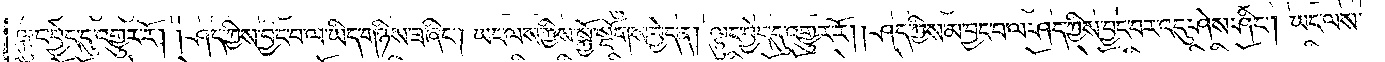ལྟུང་བྱེད་དུ་འགྱུར་རོ། །ཤད་ཀྱིས་བྱང་བ་ལ་ཡིད་གཉིས་ཟ་ཞིང༌། ཡང་ལས་ཀྱིས་སྐྱོ་སྔོགས་བྱེད་ན། ལྟུང་བྱེད་དུ་འགྱུར་རོ། །ཤད་ཀྱིས་མ་བྱང་བ་ལ་ཤད་ཀྱིས་བྱང་བར་འདུ་ཤེས་ཤིང༌། ཡང་ལས་
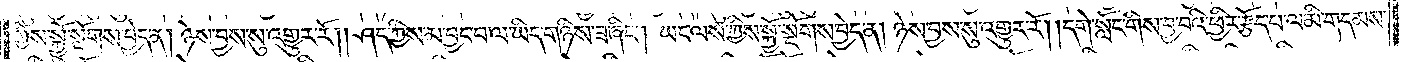ཀྱིས་སྐྱོ་སྔོགས་བྱེད་ན། ཉེས་བྱས་སུ་འགྱུར་རོ། །ཤད་ཀྱིས་མ་བྱང་བ་ལ་ཡིད་གཉིས་ཟ་ཞིང༌། ཡང་ལས་ཀྱིས་སྐྱོ་སྔོགས་བྱེད་ན། ཉེས་བྱས་སུ་འགྱུར་རོ། །དགེ་སློང་གིས་བྱ་བའི་ཕྱིར་རྩོད་པ་ལ་མི་གདམས་
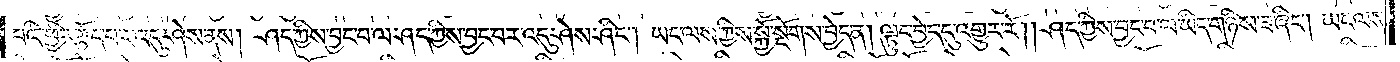པའི་ཕྱིར་རྩོད་པར་འདུ་ཤེས་ནས། ཤད་ཀྱིས་བྱང་བ་ལ་ཤད་ཀྱིས་བྱང་བར་འདུ་ཤེས་ཤིང༌། ཡང་ལས་ཀྱིས་སྐྱོ་སྔོགས་བྱེད་ན། ལྟུང་བྱེད་དུ་འགྱུར་རོ། །ཤད་ཀྱིས་བྱང་བ་ལ་ཡིད་གཉིས་ཟ་ཞིང༌། ཡང་ལས་
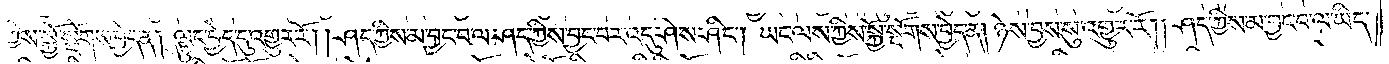ཀྱིས་སྐྱོ་སྔོགས་བྱེད་ན། ལྟུང་བྱེད་དུ་འགྱུར་རོ། །ཤད་ཀྱིས་མ་བྱང་བ་ལ་ཤད་ཀྱིས་བྱང་བར་འདུ་ཤེས་ཤིང༌། ཡང་ལས་ཀྱིས་སྐྱོ་སྔོགས་བྱེད་ན། ཉེས་བྱས་སུ་འགྱུར་རོ། །ཤད་ཀྱིས་མ་བྱང་བ་ལ་ཡིད་
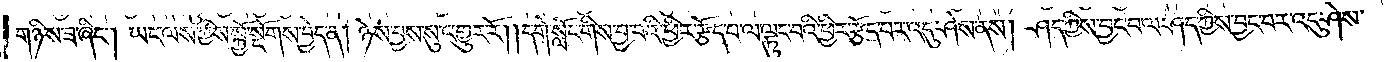གཉིས་ཟ་ཞིང༌། ཡང་ལས་ཀྱིས་སྐྱོ་སྔོགས་བྱེད་ན། ཉེས་བྱས་སུ་འགྱུར་རོ། །དགེ་སློང་གིས་བྱ་བའི་ཕྱིར་རྩོད་པ་ལ་ལྟུང་བའི་ཕྱིར་རྩོད་པར་འདུ་ཤེས་ནས། ཤད་ཀྱིས་བྱང་བ་ལ་ཤད་ཀྱིས་བྱང་བར་འདུ་ཤེས་
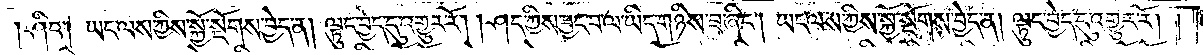ཤིང༌། ཡང་ལས་ཀྱིས་སྐྱོ་སྔོགས་བྱེད་ན། ལྟུང་བྱེད་དུ་འགྱུར་རོ། །ཤད་ཀྱིས་བྱང་བ་ལ་ཡིད་གཉིས་ཟ་ཞིང༌། ཡང་ལས་ཀྱིས་སྐྱོ་སྔོགས་བྱེད་ན། ལྟུང་བྱེད་དུ་འགྱུར་རོ། །
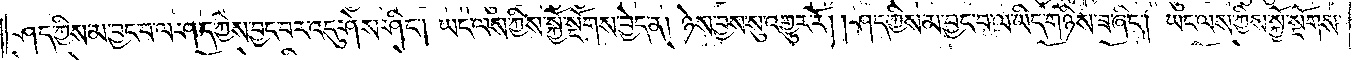ཤད་ཀྱིས་མ་བྱང་བ་ལ་ཤད་ཀྱིས་བྱང་བར་འདུ་ཤེས་ཤིང༌། ཡང་ལས་ཀྱིས་སྐྱོ་སྔོགས་བྱེད་ན། ཉེས་བྱས་སུ་འགྱུར་རོ། །ཤད་ཀྱིས་མ་བྱང་བ་ལ་ཡིད་གཉིས་ཟ་ཞིང༌། ཡང་ལས་ཀྱིས་སྐྱོ་སྔོགས་
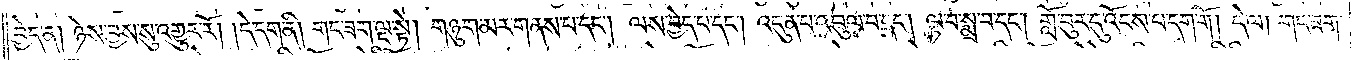བྱེད་ན། ཉེས་བྱས་སུ་འགྱུར་རོ། །དེ་དག་ནི། གང་ཟག་ལྔ་སྟེ། གཉུག་མར་གནས་པ་དང༌། ལས་བྱེད་པ་དང༌། འདུན་པ་འབུལ་བ་དང༌། ལྟ་བ་སྨྲ་བ་དང༌། གློ་བུར་དུ་འོངས་པ་དག་གོ །དེ་ལ། གང་ཟག་
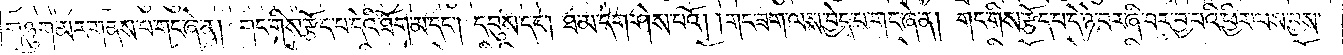གཉུག་མར་གནས་པ་གང་ཞེ་ན། གང་གིས་རྩོད་པ་དེའི་ཐོག་མ་དང༌། དབུས་དང༌། ཐ་མ་དག་ཤེས་པའོ། །གང་ཟག་ལས་བྱེད་པ་གང་ཞེ་ན། གང་གིས་རྩོད་པ་དེ་ཉེ་བར་ཞི་བར་བྱ་བའི་ཕྱིར་ལས་བྱས་
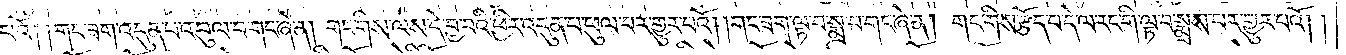པའོ༑ ༑གང་ཟག་འདུན་པ་འབུལ་བ་གང་ཞེ་ན། གང་གིས་ལས་དེ་བྱ་བའི་ཕྱིར་འདུན་པ་ཕུལ་བར་གྱུར་པའོ། །གང་ཟག་ལྟ་བ་སྨྲ་བ་གང་ཞེ་ན། གང་གིས་རྩོད་པ་དེ་ལ་རང་གི་ལྟ་བ་སྨྲས་པར་གྱུར་པའོ། །
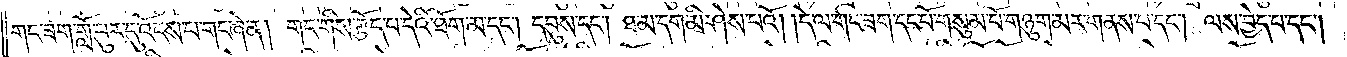གང་ཟག་གློ་བུར་དུ་འོངས་པ་གང་ཞེ་ན། གང་གིས་རྩོད་པ་དེའི་ཐོག་མ་དང༌། དབུས་དང༌། ཐ་མ་དག་མི་ཤེས་པའོ། །དེ་ལ་གང་ཟག་དང་པོ་གསུམ་པོ་གཉུག་མར་གནས་པ་དང༌། ལས་བྱེད་པ་དང༌།
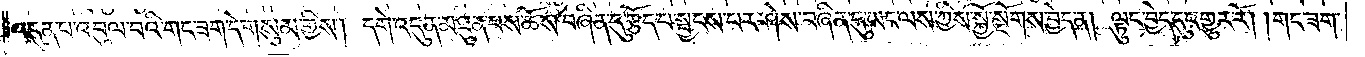འདུན་པ་འབུལ་བའི་གང་ཟག་དེ་གསུམ་གྱིས། དགེ་འདུན་མཐུན་པས་ཆོས་བཞིན་དུ་རྩོད་པ་སྦྱངས་པར་ཤེས་བཞིན་དུ་ཡང་ལས་ཀྱིས་སྐྱོ་སྔོགས་བྱེད་ན། ལྟུང་བྱེད་དུ་འགྱུར་རོ། །གང་ཟག་
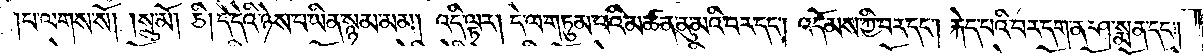པ་ལགས་སོ། །སྲུ་མོ། ཅི། དེ་དེའི་ཉེས་པ་ཡིན་སྙམ་མམ། འདི་ལྟར། དེ་ལ་གཏུམ་པའི་མཚན་ནུ་མའི་བར་དང༌། འདོམས་ཀྱི་བར་དང༌། རྐེད་པའི་བར་དག་ན་ཤ་སྨན་དང༌།
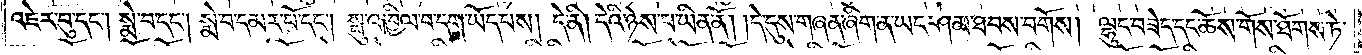འཇེར་བུ་དང༌། སྨེ་བ་དང༌། སྨེ་བ་དམར་པོ་དང༌། སྤུ་འཁྱིལ་བ་དག་ཡོད་པས། དེ་ནི། དེའི་ཉེས་པ་ཡིན་ནོ། །དེ་དུས་གཞན་ཞིག་ན་ཡང་ཤམ་ཐབས་བགོས། ལྷུང་བཟེད་དང་ཆོས་གོས་ཐོགས་ཏེ་
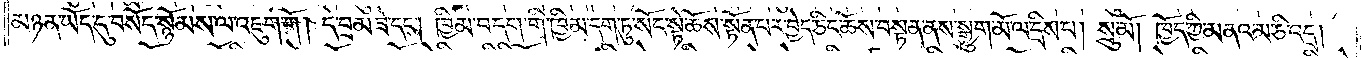མཉན་ཡོད་དུ་བསོད་སྙོམས་ལ་འཇུག་གོ །དེ་བྲམ་ཟེ་དང༌། ཁྱིམ་བདག་གི་ཁྱིམ་བདག་ཏུ་སོང་སྟེ་ཆོས་སྟོན་པར་བྱེད་ཅིང་ཆོས་བསྟན་ནས་སྒྱུག་མོ་ལ་དྲིས་པ། སྲུ་མོ། ཁྱོད་ཀྱི་མནའ་མ་ཅི་འདྲ།
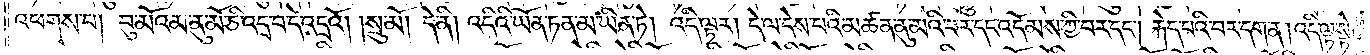འཕགས་པ། བུ་མོའམ་ནུ་མོ་ཅི་འདྲ་བ་དེ་འདྲའོ། །སྲུ་མོ། དེ་ནི། འདིའི་ཡོན་ཏན་མ་ཡིན་ཏེ། འདི་ལྟར། དེ་ལ་དེས་པའི་མཚན་ནུ་མའི་བར་དང་འདོམས་ཀྱི་བར་དང༌། རྐེད་པའི་བར་དག་ན། འདི་ལྟ་སྟེ།
